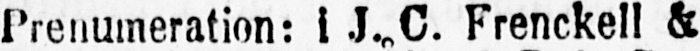Prenumeration: i J. C. Frenckell &
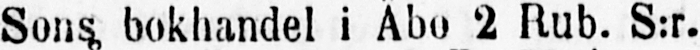Sons bokhandel i Åbo 2 Rub. S:r.
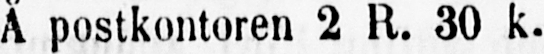Å postkontoren 2 R. 30 k.
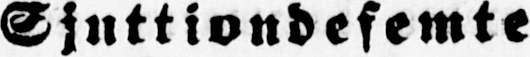Sjuttiondefemte
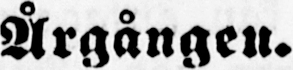Årgången.
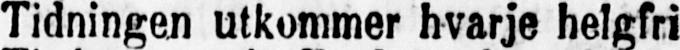Tidningen utkommer hvarje helgfri
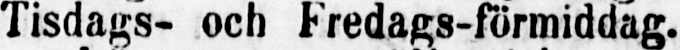Tisdags- och Fredags-förmiddag.
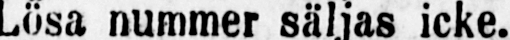Lösa nummer säljas icke.
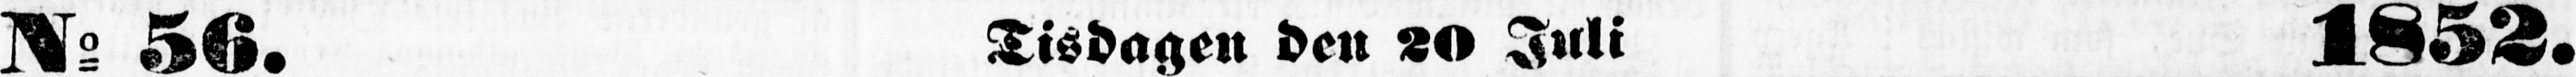N:o 56. Tisdagen den 20 Juli 1852.
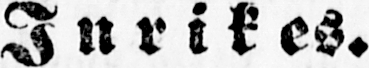Inrikes.
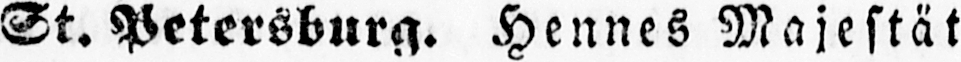St. Petersburg. Hennes Majestät
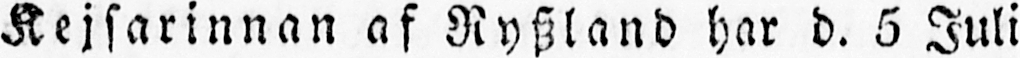Kejsarinnan af Ryszland har d. 5 Juli
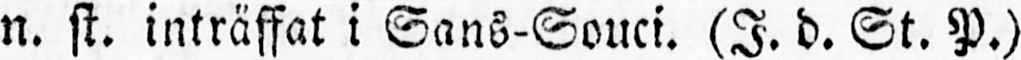n. st. inträffat i Sans-Souci. (I. d. St. P.)
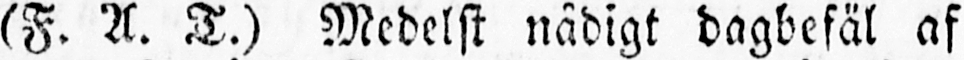(F. A. T.) Medelst nådigt dagbefäl af
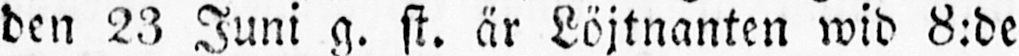den 23 Juni g. st. är Löjtnanten wid 8:de
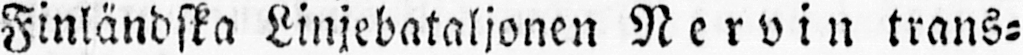Finländska Linjebataljonen Nervin trans-
